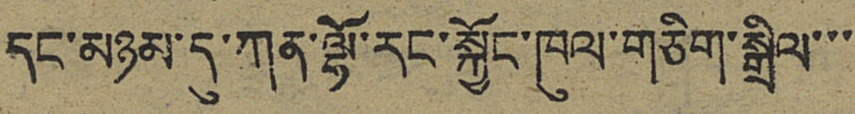དང་མཉམ་དུ་ཀན་ལྷོ་རང་སྐྱོང་ཁུལ་གཅིག་སྒྲིལ་་་
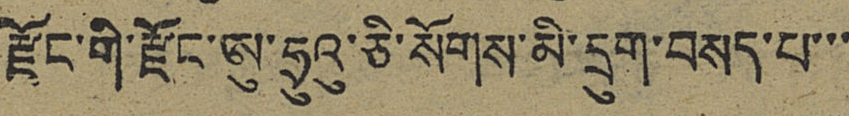རྫོང་གི་རྫོང་ཨུ་ཧྲུའུ་ཅི་སོགས་མི་དྲུག་བསད་པ་་་
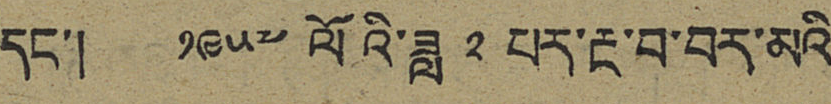དང་། ༡༩༥༧ ལོའི་ཟླ ༢ པར་རྔ་བ་བར་མའི་
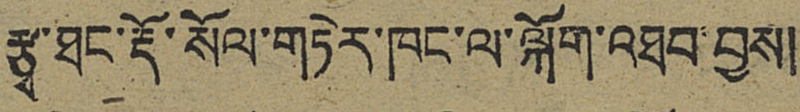རྩྭ་ཐང་རྡོ་སོལ་གཏེར་ཁང་ལ་ལྐོག་འཐབ་བྱས།
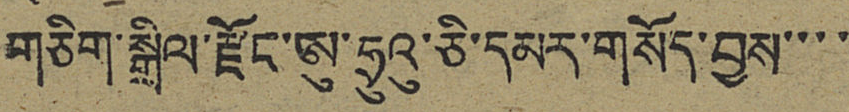གཅིག་སྒྲིལ་རྫོང་ཨུ་ཧྲུའུ་ཅི་དམར་གསོད་བྱས་་་་
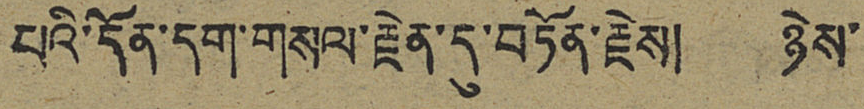པའི་དོན་དག་གསལ་རྗེན་དུ་བཏོན་རྗེས། ཉེས་
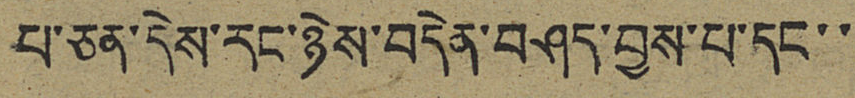པ་ཅན་དེས་རང་ཉེས་བདེན་བཤད་བྱས་པ་དང་་
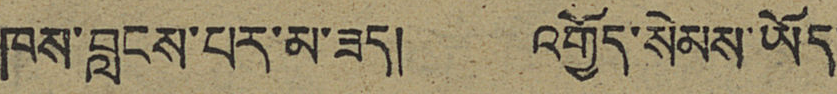ཁས་བླངས་པར་མ་ཟད། འགྱོད་སེམས་ཡོད་
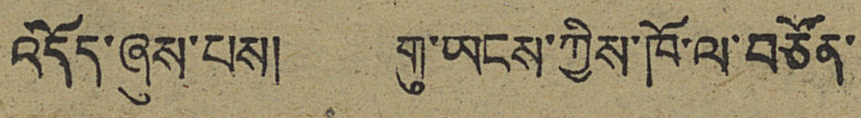འདོད་ཞུས་པས། གུ་ཡངས་ཀྱིས་ཁོ་ལ་བཙོན་
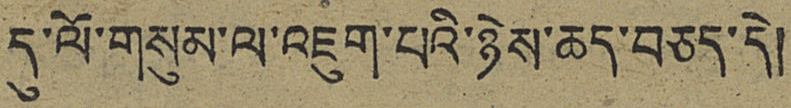དུ་ལོ་གསུམ་ལ་འཇུག་པའི་ཉེས་ཆད་བཅད་དེ།
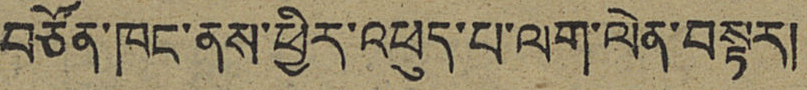བཙོན་ཁང་ནས་ཕྱིར་འཕུད་པ་ལག་ལེན་བསྟར།
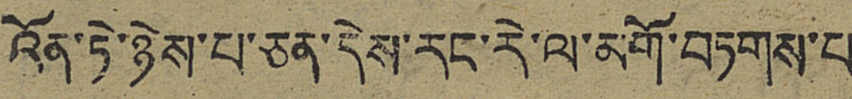འོན་ཏེ་ཉེས་པ་ཅན་དེས་རང་རེ་ལ་མགོ་བཏགས་པ
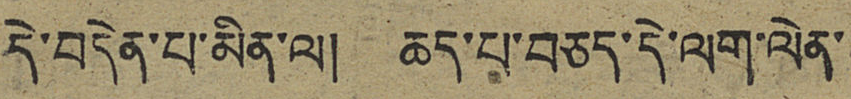དེ་བདེན་པ་མིན་ལ། ཆད་པ་བཅད་དེ་ལག་ལེན་
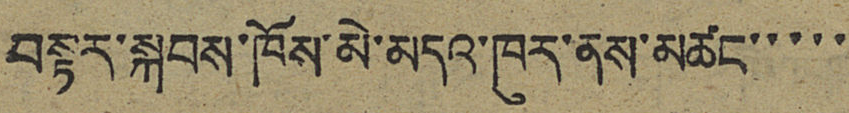བསྟར་སྐབས་ཁོས་མེ་མདའ་ཁུར་ནས་མཚང་་་་་
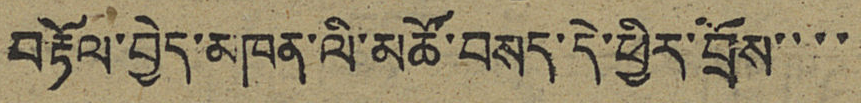བརྟོལ་བྱེད་མཁན་ལི་མཚོ་བསད་དེ་ཕྱིར་བྲོས་་་་
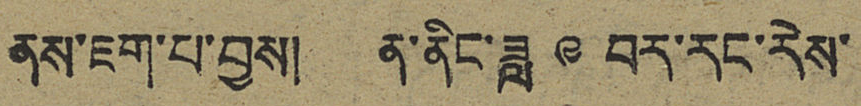ནས་ཇག་པ་བྱས། ན་ནིང་ཟླ ༩ བར་རང་རེས་
